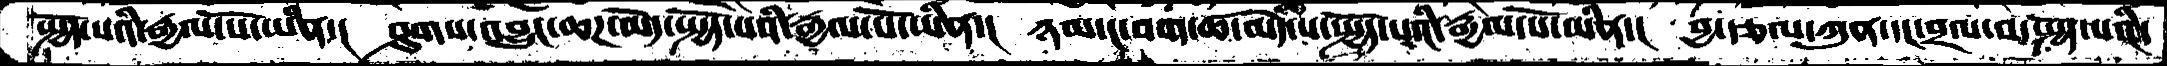སྤྱོད་པའི་རྒྱལ་པོ་ཡིན་།  ཤུགས་འབྱུང་ཆཌ་མེད་སྤྱོད་པའི་རྒྱལ་པོ་ཡིན་།  ཉམ་ང་བག་ཚ་མེད་པ་སྤྱོད་པའི་རྒྱལ་པོ་ཡིན་།  བྱ་རྩལ་ཀུན་དང་བྲལ་བ་སྤྱོད་པའི་
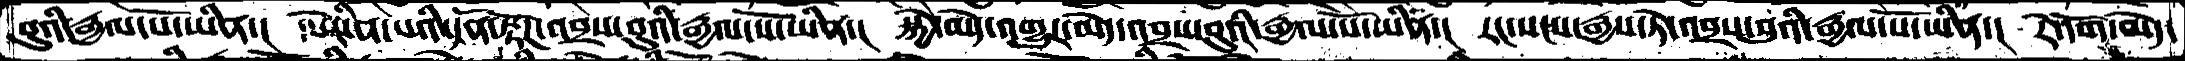བུའི་རྒྱལ་པོ་ཡིན་།  དཔེརངིན་པའི་དོན་རྟོཌ་འབྲས་བུའི་རྒྱལ་པོ་ཡིན་།  སྐྱེ་མེད་འགྱུར་མེད་འབྲས་བུའི་རྒྱལ་པོ་ཡིན་།  རང་སངས་རྒྱས་ཏེ་འབྲས་བུའི་རྒྱལ་པོ་ཡིན་།  རེ་དོག་མེད་
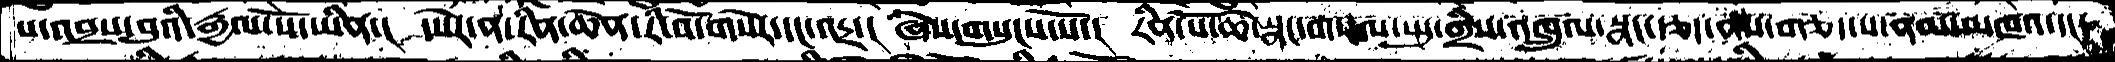པ་འབྲས་བུའི་རྒྱལ་པོ་ཡིན་།  དཔེར་ན་རིན་ཆེན་རི་བོ་གསེར་དང་འདྲ་།  ཞེས་གསུངས་སོ་།  རིན་པོ་ཆེ་སྣང་གསལ་སྤུ་གྲིས་འཁྲུལ་སྣང་རྩད་ནས་གཅོད་པ་ནམ་མཁའ་དང་།
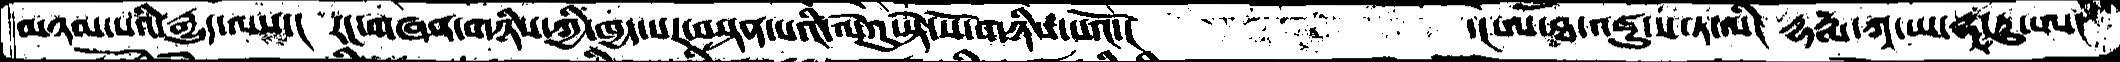མཉམ་པའི་རྒྱུད་ལས་།  རང་གཞན་གཉིས་ཀྱི་ཁྱད་པར་བསྟན་པའི་ལེའུ་སྟེ་སོ་གཉིས་པའོ་།         ་།ཨ་ཐ་འཛུ་ས་ཏ་ལི།  དྷརྨ་ཀྭ་ཡ་དྷ་ཏུ་ཨ།
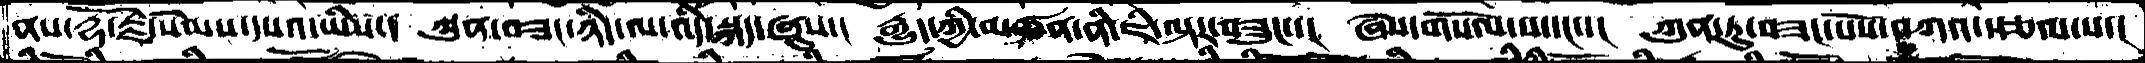ནས་རྡོ་རྗེ་སེམས་དཔའ་ཡིས་།  ཀུན་བཟང་ཉིད་ལ་འདི་སྐད་ཞུས་།  རྒྱུད་ཀྱི་མཚན་ནི་ཇི་ལྟར་བཟུང་་།  ཞེས་གསོལ་པ་དང་་།  ཀུན་ཏུ་བཟང་པོས་བཀའ་སྩལ་པ་།
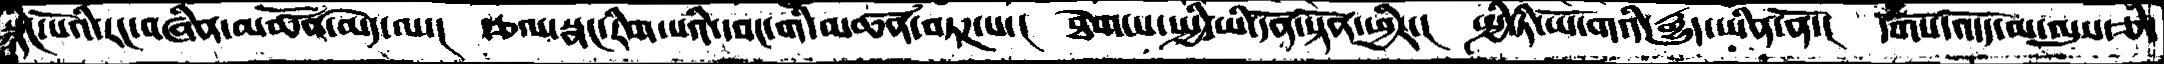སྙིང་པོའི་རང་བཞིན་མཚོན་མེད་ལ་།  རྩལ་སྣང་རིག་པའི་དབང་གི་མཚན་བཏཌ་པ་།  ཐེག་པ་སྤྱི་ཡི་དོན་སྟོན་ཕྱིར་།  སྤྱི་ཏི་ཡོ་གའི་རྒྱུད་ཡིན་ནོ་།  དགོས་འདོད་མ་ལུས་ཅི་
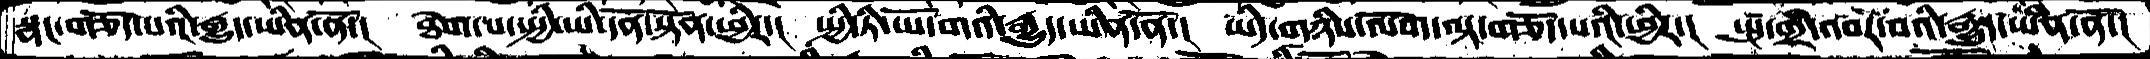སྣང་གཅོད་པའི་རྒྱུད་ཡིན་ནོ་།  ཐེག་པ་སྤྱི་ཡི་དོན་སྟོན་ཕྱིར་།  སྤྱི་ཏི་ཡོ་གའི་རྒྱུད་ཡིན་ནོ་།  ཡིད་གཉིས་ལོག་ལྟ་གཅོད་པའི་ཕྱིར་།  སྤུ་གྲི་འབར་བའི་རྒྱུད་ཡིན་ནོ་།
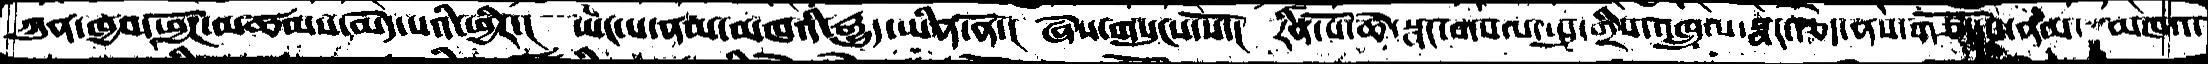ཀུན་ཁྱབ་ཕྱོཌ་མཚམས་མེད་པའི་ཕྱིར་།  ཡང་པ་ནམ་མཁའི་རྒྱུད་ཡིན་ནོ་།  ཞེས་གསུངས་སོ་།  རིན་པོ་ཆེ་སྣང་གསལ་སྤུ་གྲིས་འཁྲུལ་སྣང་རྩད་ནས་གཅོད་པ་ནམ་  མཁའ་
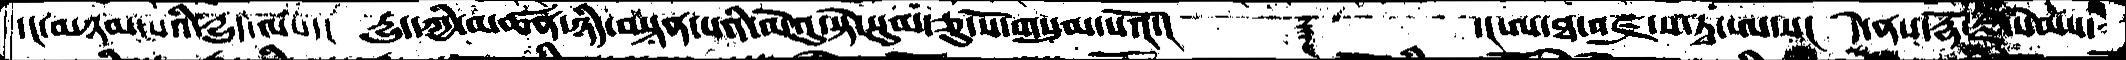དང་མཉམ་པའི་དྱུད་ལས་།   དྱུད་ཀྱི་མཚན་ཉིད་བསྟན་པའི་ལེའུ་སྟེ་སུམ་ཅུ་སོ་གསུམ་པའོ་།     ༈      ་།ཨ་ཐ་བཛྲ་ས་ཏྭ་ཨ་ས།  དེ་ནས་རྡོ་རྗེ་སེམས་
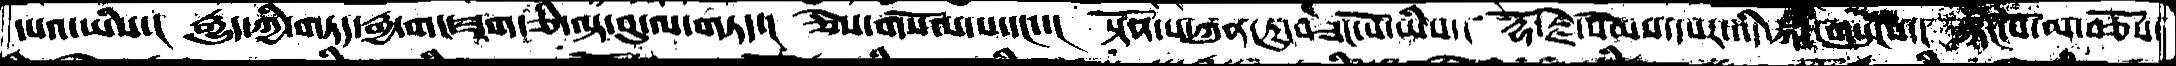དཔའ་ཡིས་།  རྒྱུད་ཀྱི་གཏད་རྒྱ་གང་ཟག་ཅི་ལྟ་བུ་ལ་གཏད་།   ཅེས་གསོལ་པ་དང་་།  སྟོན་པ་ཀུན་ཏུ་བཟང་པོ་ཡིས་།  རྡོ་རྗེ་སེམས་དཔར་འདི་སྐད་གསུངས་།  སྙིང་པོ་མ་བཅོས་
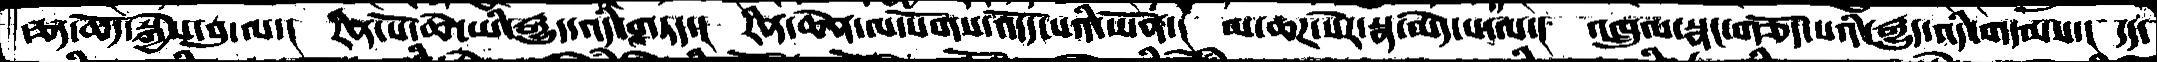རྩད་ཆོད་སྐྱེས་བུ་ལ་།  རིན་པོ་ཆེ་ཡི་རྒྱུད་འདི་གཏད་།  རིན་ཆེན་ལ་སོགས་འདོད་པའི་ཡོན་།  མ་ཆཌ་སེར་སྣ་མེད་པ་ལ་།  འཁྲུལ་སྣང་གཅོད་པའི་རྒྱུད་འདི་གདམས་།  དད་
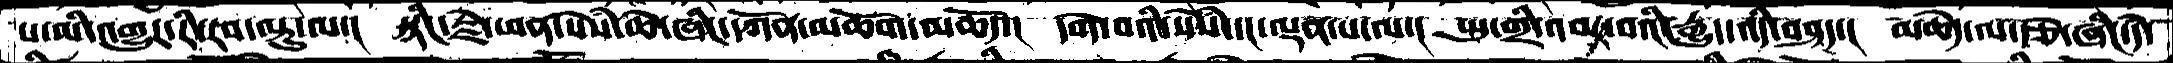པ་མི་འགྱུར་རི་རབ་ལྟུ་ལ་།  སྙིང་རྗེ་ཕན་སེཾས་ཆེ་ཞིང་དཀོན་མཆོག་མཆོད་།  དགེ་བའི་སེཾས་དང་ལྡན་པ་ལ་།  སྤུ་གྲི་འབར་བའི་རྒྱུད་འདི་བཤད་།  མཆེད་ལ་རྩེ་ཞིང་དེ་
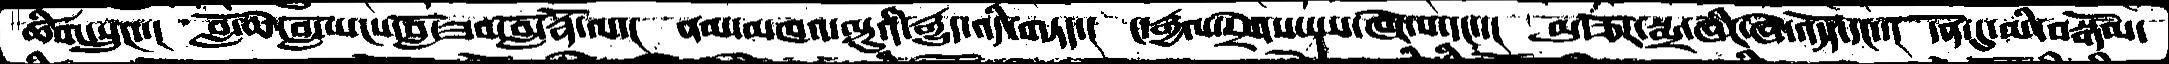ཚིག་སྲུང་་།  བློ་ཆེ་བློ་ཡངས་བློ་ཟབ་བློ་རྣོ་ལ་།  ནམ་མཁའ་ལྟུའི་རྒྱུད་འདི་གཏད་།  ང་རྒྱལ་དྲེགས་པས་ཁེང་པ་དང་་།  མུ་ཅོར་སྨྲ་ཞིང་ཞེ་འདོད་དང་་།  དོན་དུ་མི་བསྒོམ་
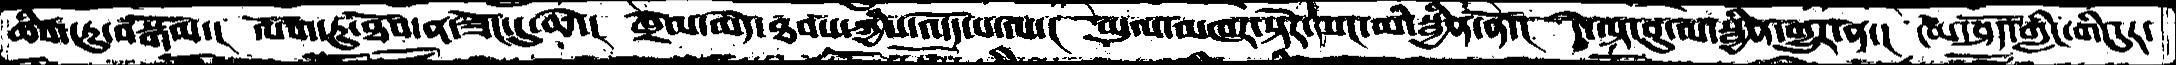ཚིག་ཏུ་བསྒོམ་།  ལོག་ཏུ་ཐོབ་ན་ཟོང་དུ་ཆེ་།  ཁྲེལ་མེད་ཐབས་ཀྱིས་འདོད་པ་ལ་།  ཡུལ་མཁར་སྟེར་ཡང་མི་སྦྱིན་ན་།  དེ་ལྟ་བུ་ལ་སྦྱིན་འགྱུར་ན་།  ངམ་ཤོད་གླིང་གི་དུར་
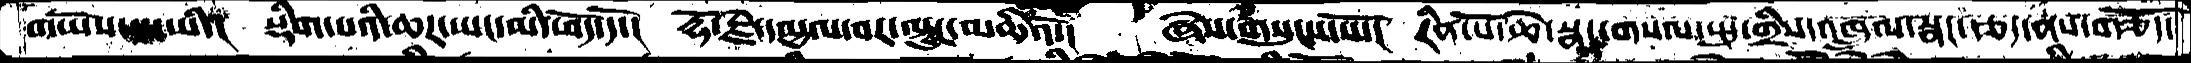གཡོས་པ་ཡི་།  སྡིག་པའི་ཆར་ཡང་མི་ཕོད་དོ་།  རྡོ་རྗེ་དམྱལ་བར་ལྟུང་མཆིའོ་།  ཞེས་གསུངས་སོ་།  རིན་པོ་ཆེ་སྣང་གསལ་སྤུ་གྲིས་འཁྲུལ་སྣང་རྩད་ནས་གཅོད་
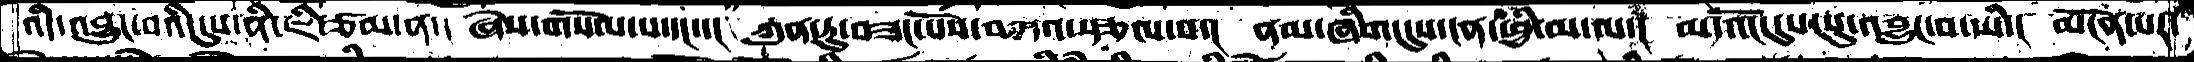འདི་འབྱུང་བའི་དུས་ནི་ཇི་ཙམ་ན་།  ཞེས་གསོལ་པ་དང་་།  ཀུན་ཏུ་བཟང་པོས་བཀའ་སྩལ་པ་།  ནམ་ཞིག་དུས་ངན་ཕྱི་མ་ལ་།  མ་འོང་དུས་སུ་འབྱུང་བ་ཡི་།  མངོན་པར་
